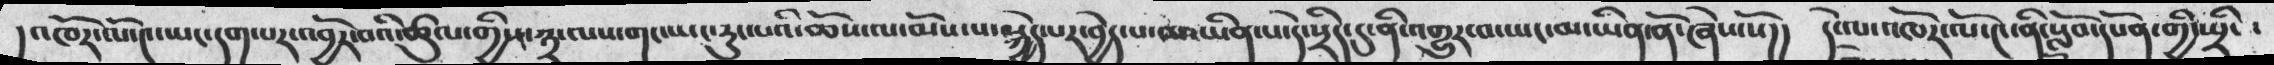།འཁོར་ལོ་༤་ཡང་དག་པར་འབྱོར་བའི་ཚུལ་གྱིས་༣་ལས་གང་ཡང་རུང་ཆོས་ལ་མོས་པ་སྐྱེད་པར་བྱེད་པ་མ་ཡིན་པ་དེ་སྲིད་དུ་ནི་འགྱུར་བ་ཡང་མ་ཡིན་ནོ་ཞེས་སོ།།  དེ་ལ་འཁོར་ལོ་༤་ནི་སློབ་དཔོན་གྱི་ཕྲིས་
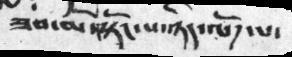ཟབ་མོ་སྟོང་པ་ཉིད་ལོཌ་པ་
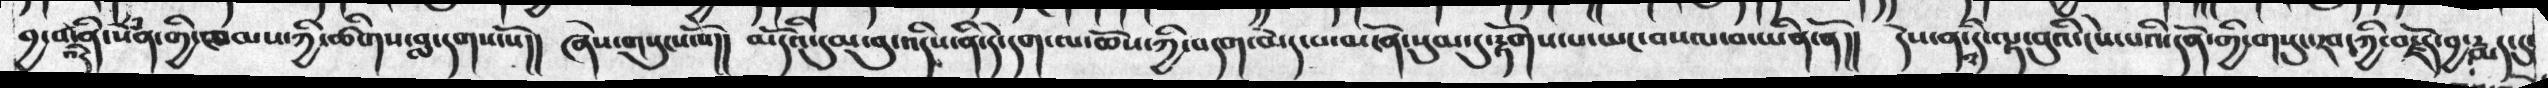བྱ་བ་འོར་ནི་སེཾན་གྱི་ཁམས་ཀྱི་ཚིགས་བླ་དགས་སོ།།  ཞེས་གསུངས་སོ།།  མདོའི་དུམ་བུ་འདིས་ནི་དེ་དག་ལ་ཆོས་ཀྱི་བདག་མེད་པ་མངོན་སུམ་དུ་རྟོགས་པ་ཡང་བསལ་བ་ཡིན་ནོ།།  དེས་ན་འདི་ལྟ་བུའི་ངེས་པའི་དོན་གྱི་གསུང་རབ་ཀྱི་བརྗོད་བྱ་རྨད་དུ་
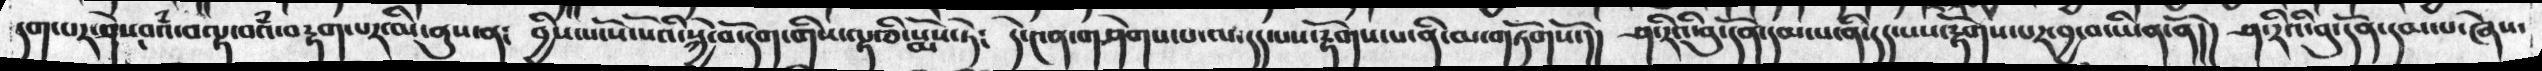དག་པར་ཤེས་བའཾ་བལྟ་བའཾ་བརྟག་པར་མི་ནུས་ན༴  བྱིས་པ་སོ་སོའི་སྐྱེ་བོ་དག་གིས་ལྟ་ཅི་སྨོས་ཏེ༴  དེ་༤ན་གཤེགས་པ་ལ་དད་པས་རྟོགས་པ་ནི་མ་གཏོགསོ་།།  ཤ་རིའི་བུ་དོན་དམ་པ་ནི་དད་པས་རྟོགས་པར་བྱ་བ་ཡིན་ནོ།།  ཤ་རིའི་བུ་དོན་དམ་པ་ཞེས་
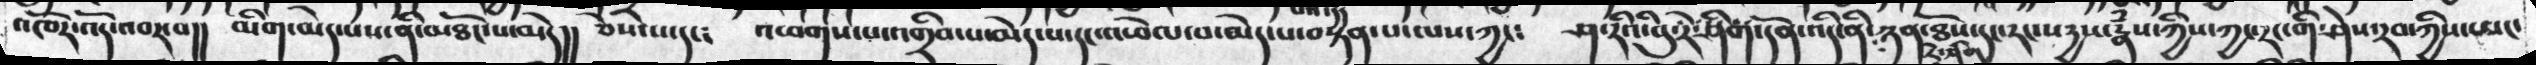འཁོར་འོད་འབར་བ།།     མིག་མེད་པས་ནི་མཐོང་པ་མེད།།   ཅེས་པ་དང་    འཕགས་པ་འགྲིབ་པ་མེད་པ་དང་འཕེལ་བ་མེད་པ་བསྟན་པ་ལས་ཀྱང་   ཤ་རིའི་བུ་རེ་ཤིག་དོན་འདི་ནི་རེ་ཤིག་ཉན་ཐོས་དང་རང་སདྱས་རྣཾས་ཀྱིས་ཀྱང་རང་གི་ཤེས་རབ་ཀྱིས་ཡང་
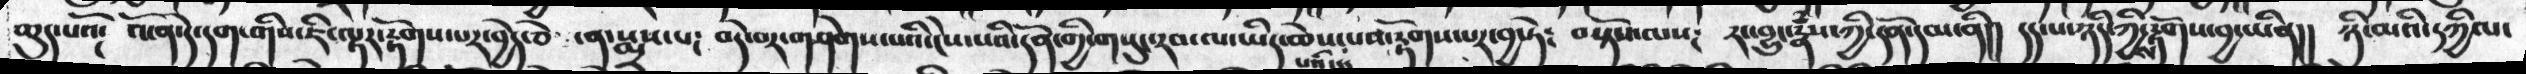མུད་པའོ།  འོ་ན་དེ་དག་གིས་ཇི་ལྟར་རྟོགས་པར་བྱེད་ཅེ  ་ན་སྨྲས་པ༴ བདེ་བར་གཤེགས་པའི་ངེས་པའི་དོན་གྱི་གསུང་རབ་ལ་ཡིད་ཆེས་པའི་རྟོགས་པར་བྱ་ཏེ་༴ བསྡོས་ལས༴     རང་བྱུང་རྣཾས་ཀྱི་དོན་དམ་ནི།།  དད་པ་ཉིད་ཀྱིས་རྟོགས་བྱ་ཡིན།།   ཉི་མའི་དཀྱིལ་
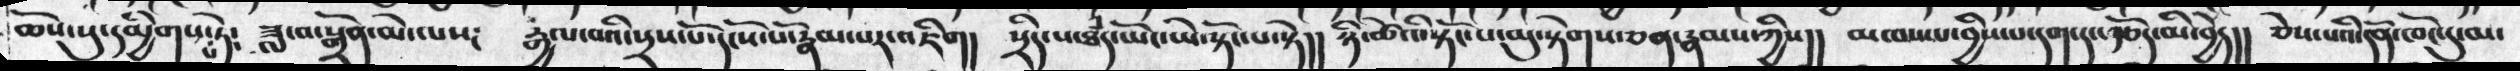ཆོས་སུ་དམྱིགས་པ་ཏེ༴   ཟླ་བ་སྒྲོན་མེ་ལས༴   རྒྱལ་བའི་སྲས་པོ་དངོས་པོ་རྣམ་པར་འཇིག།  སྲིད་༷པ་ཐཾད་ཡོང་ཡི་སྟོང་པ་སྟེ།།   ཉ ི་ཚེའི་སྟོང་པ་མུ་སྟེགས་ཅན་རྣམས་ཀྱིས།།   མཁས་པ་བྱིས་པ་དག་དང་རྩོད་མི་བྱེད།།   ཅེས་༷པའི་དོན་ཁོང་དུ་མ་
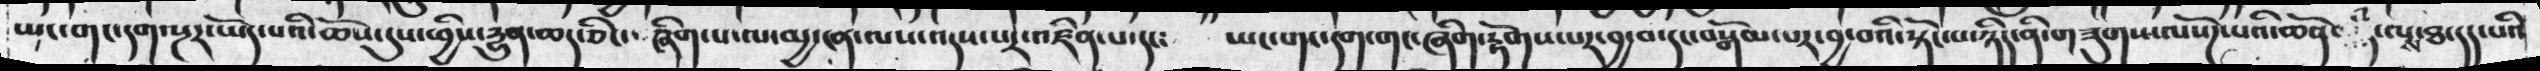ཡང་གང་དག་སྔར་ཡོད་པའི་ཆོས་དུས་ཕྱིས་རྱུན་ཆད་ཅིང་ ཞིག་པ་ལ་མྱ་ངན་ལས་འདས་པར་འཛིན་པ་དང༴   ཡང་གང་དག་གང་ཞིག་རྟོགས་པར་བྱ་བ་དང་བསྒོམ་པར་བྱ་བའི་སྟོང་པ་ཉིད་ནི་གཟུགས་ལསོཌ་པའི་ཆོན་ཉིད་ལས་ཐ་དད་པའི་
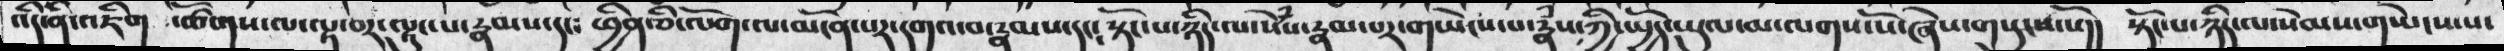འདི་ནི་འཇིག ཚོགས་ལ་ལྟ་བར་ལྟུང་པ་རྣམས་དང༴  ཕྱིན་ཅི་ལོག་ལ་མངོན་པར་དགའ་བ་རྣམས་དང༴  སྟོང་པ་ཉིད་ལ་སེཾས་རྣམ་པར་གཡེངས་པ་རྣཾས་ཀྱི་སྤྱོད་ཡུལ་མ་ལགས་སོ་ཞེས་གསུངས་སོ།།  སྟོང་པ་ཉིད་ལ་སེམས་གཡེངས་པ་
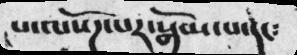པ་ལ་སོཌ་པར་སྒོམ་པ་དང༴
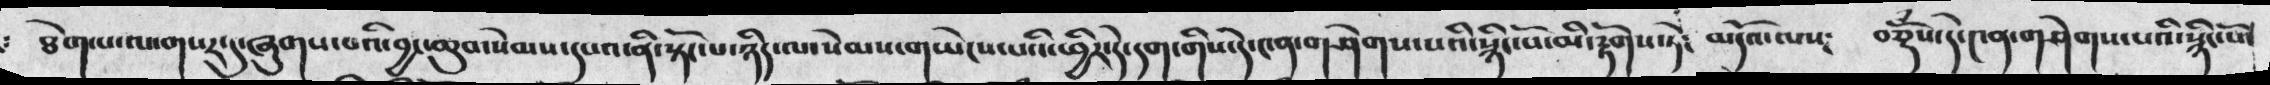ཐེག་པ་ལ་གསར་དུ་ཞུགས་པའི་བྱང་ཆུབ་སེམས་དཔའ་ནི་སྟོང་ཉིད་ལ་སེམས་གཡེངས་པའི་ཕྱིར་དེ་དག་གི་དེ་༤ན་གཤེགས་པའི་སྙིང་པོ་མི་རྟོགས་ཏེ༴  མདོའ་ལས༴ བཅོཾས་དེ་༤ན་གཤེགས་པའི་སྙིང་པོ་
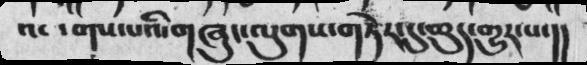འ་  ་གས་པའི་གཞུང་ལུགས་གཏེར་དུ་ཆུད་གྱུར་པ་།།
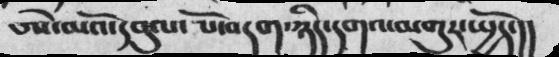ཨེ་མའོ་དབུལ་པོ་བདག་ཉིད་དགའ་མགུར་སྤྱོད་།།
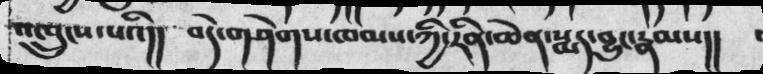འཁྲུངས་པའི།།  བདེ་གཤེགས་ཁམས་ཀྱི་རིན་ཆེན་སྨད་བྱུང་རྣམས།།
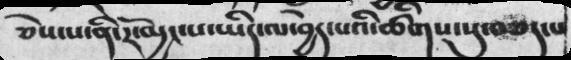ཅེས་པ་ནི་རོ་མྱངཔ་ཡིད་ལ་བྱེད་པའི་ཚིགས་སུ་བཅད་པ
